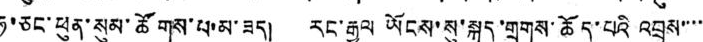ཧ་ཅང་ཕུན་སུམ་ཚོགས་པ་མ་ཟད། རང་རྒྱལ ཡོངས་སུ་སྐད་གྲགས་ཆོད་པའི འབྲས་་་་
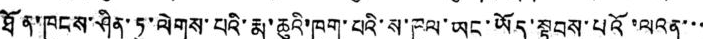ཐོན་ཁུངས་ཤིན་ཏུ་ལེགས་པའི་རྨ་ཆུའི་ཁག་པའི་ས་ཁུལ་ཡང་ཡོད་སྟབས་པའོ་ལའན་་་
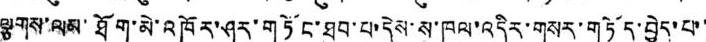ལྕགས་ལམ་ཐོག་མེ་འཁོར་ཤར་གཏོང་ཐུབ་པ་དེས་ས་ཁུལ་འདིར་གསར་གཏོད་བྱེད་པ་་
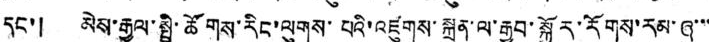དང་། མེས་རྒྱལ་སྤྱི་ཚོགས་རིང་ལུགས་པའི་འཛུགས་སྐྲུན་ལ་རྒྱབ་སྐྱོར་རོགས་རམ་ཞུ་་་
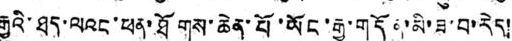རྒྱུའི་ཐད་ལའང་ཕན་ཐོགས་ཆེན་པོ་ཡོང་རྒྱུ་གདོན་མི་ཟ་བ་རེད།
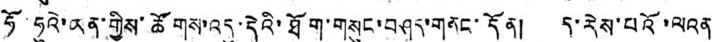ཧོ་ཧུའེ་ཡན་གྱིས་ཚོགས་འདུ་དེའི་ཐོག་གསུང་བཤད་གནང་དོན། ད་རེས་པའོ་ལའན
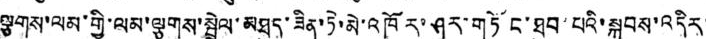ལྕགས་ལམ་གྱི་ལམ་ལྕགས་སྦྲེལ་མཐུད་ཟིན་ཏེ་མེ་འཁོར་ཤར་གཏོང་ཐུབ་པའི་སྐབས་འདིར་
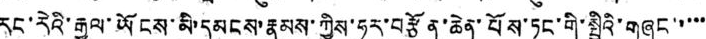རང་རེའི་རྒྱལ་ཡོངས་མི་དམངས་རྣམས་ཀྱིས་ཧུར་བརྩོན་ཆེན་པོས་ཏང་གི་སྤྱིའི་གཞུང་་་་་
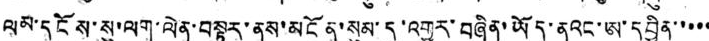ལམ་དངོས་སུ་ལག་ལེན་བསྟར་ནས་མངོན་སུམ་དུ་འགྱུར་བཞིན་ཡོད་ནའང་ཨ་དབྱིན་་་་་
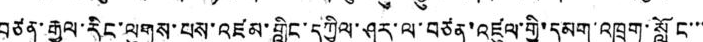བཙན་རྒྱལ་རིང་ལུགས་པས་འཛམ་གླིང་དཀྱིལ་ཤར་ལ་བཙན་འཛུལ་གྱི་དམག་འཁྲུག་སློང་་་
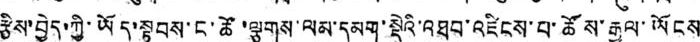རྩིས་བྱེད་ཀྱི་ཡོད་སྟབས་ང་ཚོ་ལྕགས་ལམ་དམག་སྡེའི་འཐབ་འཛིངས་པ་ཚོས་རྒྱལ་ཡོངས་
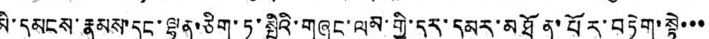མི་དམངས་རྣམས་དང་ལྷན་ཅིག་ཏུ་སྤྱིའི་གཞུང་ལམ་གྱི་དར་དམར་མཐོན་པོར་བཏེག་སྟེ་་་
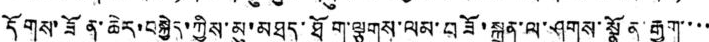དོགས་ཟོན་ཆེར་བསྐྱེད་ཀྱིས་མུ་མཐུད་ཐོག་ལྕགས་ལམ་བཟོ་སྐྲུན་ལ་ཤུགས་སྣོན་རྒྱག་་་་
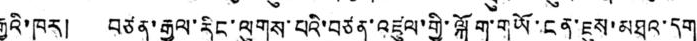རྒྱུའི་ཁར། བཙན་རྒྱལ་རིང་ལུགས་པའི་བཙན་འཛུལ་གྱི་སྐོག་གཡོ་ངན་ཇུས་མཐའ་དག་
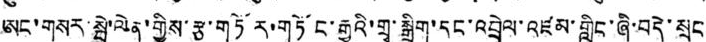ཨང་གསར་སྦེ་ལེན་གྱིས་རྩ་གཏོར་གཏོང་རྒྱུའི་གྲྭ་སྒྲིག་དང་འབྲེལ་འཛམ་གླིང་ཞི་བདེ་སྲུང་
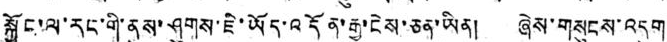སྐྱོང་ལ་རང་གི་ནུས་ཤུགས་ཇི་ཡོད་འདོན་རྒྱུ་ངེས་ཅན་ཡིན། ཞེས་གསུངས་འདུག
